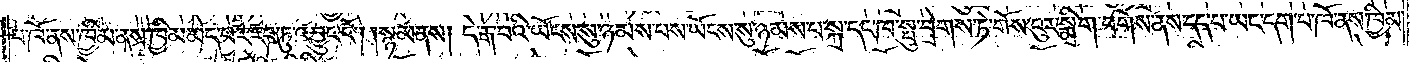པ་ཁོ་ནས་ཁྱིམ་ནས་ཁྱིམ་མེད་པར་རབ་ཏུ་འབྱུང་ངོ༌། །སྙམ་ནས། དེ་རྒ་བའི་ཡོངས་སུ་ཉམས་པས་ཡོངས་སུ་ཉམས་པ་སྐྲ་དང་ཁ་སྤུ་བྲེགས་ཏེ་གོས་ངུར་སྨྲིག་བགོས་ནས་དད་པ་ཡང་དག་པ་ཁོ་ནས་ཁྱིམ་
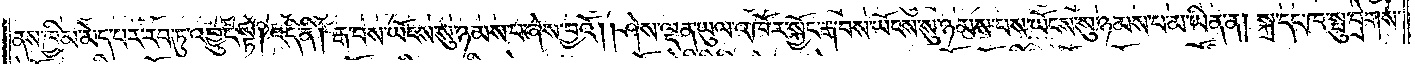ནས་ཁྱིམ་མེད་པར་རབ་ཏུ་འབྱུང་སྟེ། འདི་ནི། རྒ་བས་ཡོངས་སུ་ཉམས་པ་ཞེས་བྱའོ། །ཤེས་ལྡན་ཡུལ་འཁོར་སྐྱོང་རྒ་བས་ཡོངས་སུ་ཉམས་པས་ཡོངས་སུ་ཉམས་པ་མ་ཡིན་ན། སྐྲ་དང་ཁ་སྤུ་བྲེགས་
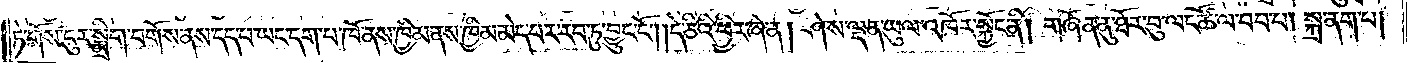ཏེ་གོས་ངུར་སྨྲིག་བགོས་ནས་དད་པ་ཡང་དག་པ་ཁོ་ནས་ཁྱིམ་ནས་ཁྱིམ་མེད་པར་རབ་ཏུ་བྱུང་ངོ༌། །དེ་ཅིའི་ཕྱིར་ཞེ་ན། ཤེས་ལྡན་ཡུལ་འཁོར་སྐྱོང་ནི། གཞོན་ནུ་ཐོར་བུ་ལང་ཚོ་ལ་བབ་པ། སྐྲ་ནག་པ།
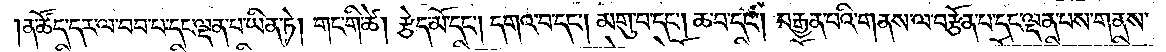ན་ཚོད་དར་ལ་བབ་པ་དང་ལྡན་པ་ཡིན་ཏེ། གང་གི་ཚེ། རྩེད་མོ་དང༌། དགའ་བ་དང༌། མ་གུ་བ་དང༌། ཆ་བ་དང༌། བརྒྱན་པའི་གནས་ལ་བརྩོན་པ་དང་ལྡན་པས་གནས་
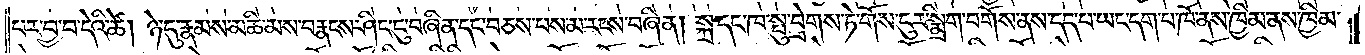པར་བྱ་བ་དེའི་ཚེ། ཉེ་དུ་རྣམས་མཆི་མས་བརྣངས་ཤིང་ངུ་བཞིན་དང་བཅས་པས་མ་རངས་བཞིན། སྐྲ་དང་ཁ་སྤུ་བྲེགས་ཏེ་གོས་ངུར་སྨྲིག་བགོས་ནས་དད་པ་ཡང་དག་པ་ཁོ་ནས་ཁྱིམ་ནས་ཁྱིམ་
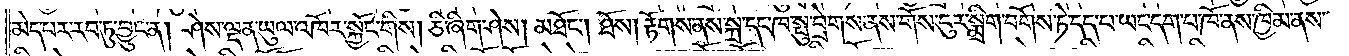མེད་པར་རབ་ཏུ་བྱུང་ན། ཤེས་ལྡན་ཡུལ་འཁོར་སྐྱོང་གིས། ཅི་ཞིག་ཤེས། མཐོང༌། ཐོས། རྟོགས་ནས་སྐྲ་དང་ཁ་སྤུ་བྲེགས་ནས་གོས་ངུར་སྨྲིག་བགོས་ཏེ་དད་པ་ཡང་དག་པ་ཁོ་ནས་ཁྱིམ་ནས་
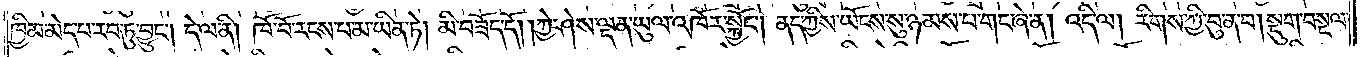ཁྱིམ་མེད་པ་རབ་ཏུ་བྱུང༌། དེ་ལ་ནི། ཁོ་བོ་རངས་པ་མ་ཡིན་ཏེ། མི་བཟོད་དོ། །ཀྱེ་ཤེས་ལྡན་ཡུལ་འཁོར་སྐྱོང༌། ནད་ཀྱིས་ཡོངས་སུ་ཉམས་པ་གང་ཞེ་ན། འདི་ལ། རིགས་ཀྱི་བུ་ན་བ། སྡུག་བསྔལ་
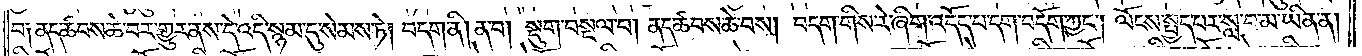བ༑ ནད་ཚབས་ཆེ་བར་གྱུར་ནས་དེ་འདི་སྙམ་དུ་སེམས་ཏེ། བདག་ནི། ན་བ། སྡུག་བསྔལ་བ། ནད་ཚབས་ཆེ་བས། བདག་གིས་རེ་ཞིག་འདོད་པ་དག་བདོག་ཀྱང༌། ལོངས་སྤྱད་པར་སླ་བ་མ་ཡིན་ན།
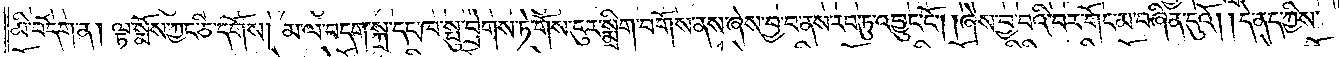མི་བདོག་ན། ལྟ་སྨོས་ཀྱང་ཅི་དགོས། མ་ལ་བདག་སྐྲ་དང་ཁ་སྤུ་བྲེགས་ཏེ་གོས་ངུར་སྨྲིག་བགོས་ནས་ཞེས་བྱ་བ་ནས་རབ་ཏུ་འབྱུང་ངོ༌། །ཞེས་བྱ་བའི་བར་གོང་མ་བཞིན་དུའོ། །དེ་ནད་ཀྱིས་
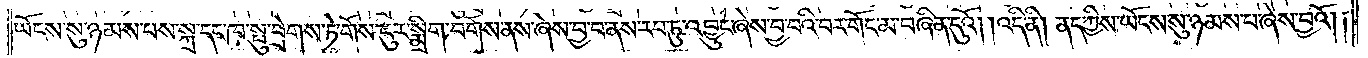ཡོངས་སུ་ཉམས་པས་སྐྲ་དང་ཁ་སྤུ་བྲེགས་ཏེ་གོས་ངུར་སྨྲིག་བགོས་ནས་ཞེས་བྱ་བ་ནས་རབ་ཏུ་འབྱུང་ཞེས་བྱ་བའི་བར་གོང་མ་བཞིན་དུའོ། །འདི་ནི། ནད་ཀྱིས་ཡོངས་སུ་ཉམས་པ་ཞེས་བྱའོ། །
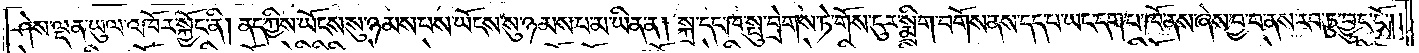ཤེས་ལྡན་ཡུལ་འཁོར་སྐྱོང་ནི། ནད་ཀྱིས་ཡོངས་སུ་ཉམས་པས་ཡོངས་སུ་ཉམས་པ་མ་ཡིན་ན། སྐྲ་དང་ཁ་སྤུ་བྲེགས་ཏེ་གོས་ངུར་སྨྲིག་བགོས་ནས་དད་པ་ཡང་དག་པ་ཁོ་ནས་ཞེས་བྱ་བ་ནས་རབ་ཏུ་བྱུང་ངོ༌། །
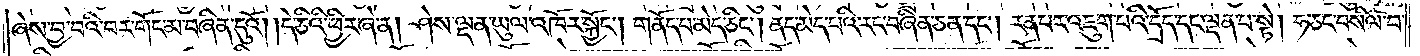ཞེས་བྱ་བའི་བར་གོང་མ་བཞིན་དུའོ། །དེ་ཅིའི་ཕྱིར་ཞེ་ན། ཤེས་ལྡན་ཡུལ་འཁོར་སྐྱོང༌། གནོད་པ་མེད་ཅིང༌། ནད་མེད་པའི་རང་བཞིན་ཅན་དང༌། རན་པར་འཇུག་པའི་དྲོད་དང་ལྡན་པ་སྟེ། ཧ་ཅང་བསིལ་བ་
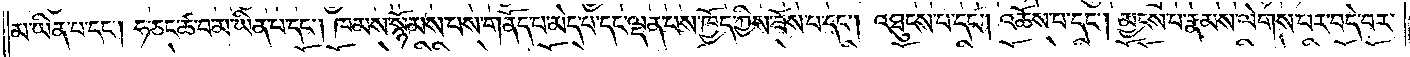མ་ཡིན་པ་དང༌། ཧ་ཅང་ཚ་བ་མ་ཡིན་པ་དང༌། ཁམས་སྙོམས་པས་གནོད་པ་མེད་པ་དང་ལྡན་པས་ཁྱོད་ཀྱིས་ཟོས་པ་དང༌། འཐུངས་པ་དང༌། འཆོས་པ་དང༌། མྱངས་པ་རྣམས་ལེགས་པར་བདེ་བར་
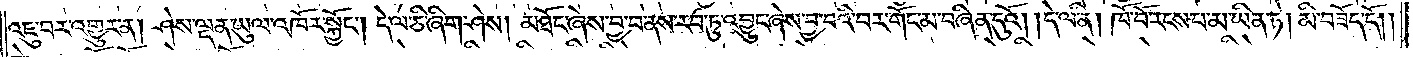འཇུ་བར་འགྱུར་ན། ཤེས་ལྡན་ཡུལ་འཁོར་སྐྱོང༌། དེ་ལ་ཅི་ཞིག་ཤེས། མཐོང་ཞེས་བྱ་བ་ནས་རབ་ཏུ་འབྱུང་ཞེས་བྱ་བའི་བར་གོང་མ་བཞིན་དུའོ། །དེ་ལ་ནི། ཁོ་བོ་རངས་པ་མ་ཡིན་ཏེ། མི་བཟོད་དོ། །
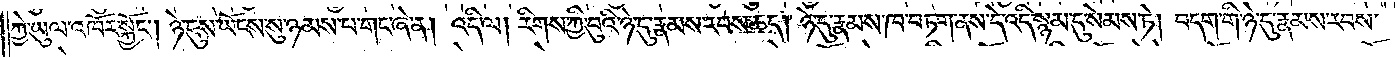ཀྱེ་ཡུལ་འཁོར་སྐྱོང༌། ཉེ་དུས་ཡོངས་སུ་ཉམས་པ་གང་ཞེ་ན། འདི་ལ། རིགས་ཀྱི་བུའི་ཉེ་དུ་རྣམས་རབས་ཆད། ཉེ་དུ་རྣམས་ཁ་བཏག་ནས་དེ་འདི་སྙམ་དུ་སེམས་ཏེ། བདག་གི་ཉེ་དུ་རྣམས་རབས་
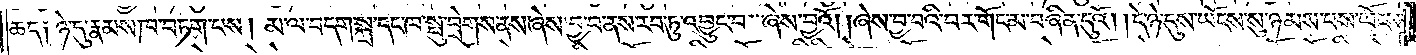ཆད༑ ཉེ་དུ་རྣམས་ཁ་བཏགས་པས། མ་ལ་བདག་སྐྲ་དང་ཁ་སྤུ་བྲེགས་ནས་ཞེས་བྱ་བ་ནས་རབ་ཏུ་འབྱུང་བ་ཞེས་བྱའོ། །ཞེས་བྱ་བའི་བར་གོང་མ་བཞིན་དུའོ། །དེ་ཉེ་དུས་ཡོངས་སུ་ཉམས་པས་ཡོངས་
